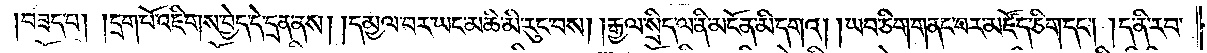།བཟད་པ། །དྲག་པོ་འཇིགས་བྱེད་དེ་དྲན་ནས། །དམྱལ་བར་ཡང་མཆི་མི་རུང་བས་།རྒྱལ་སྲིད་ལ་ནི་མངོན་མི་དགའ། །ཡབ་ཅིག་གནང་བར་མཛོད་ཅིག་དང༌། །ད་ནི་རབ་
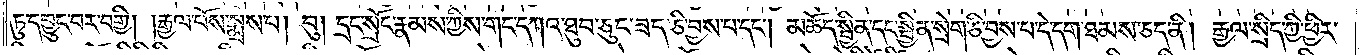ཏུ་དབྱུང་བར་བགྱི། །རྒྱལ་པོས་སྨྲས་པ། །བུ། དྲང་སྲོང་རྣམས་ཀྱིས་གང་དཀའ་ཐུབ་ཅུང་ཟད་ཅི་བྱས་པ་དང༌། མཆོད་སྦྱིན་དང་སྦྱིན་སྲེག་ཅི་བྱས་པ་དེ་དག་ཐམས་ཅད་ནི། རྒྱལ་སྲིད་ཀྱི་ཕྱིར་
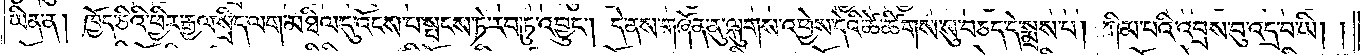ཡིན་ན། ཁྱོད་ཅིའི་ཕྱིར་རྒྱལ་སྲིད་ལག་མཐིལ་དུ་འོངས་པ་སྤངས་ཏེ་རབ་ཏུ་འབྱུང༌། དེ་ནས་གཞོན་ནུ་ལྐུགས་འཕྱེས་དེའི་ཚེ་ཚིགས་སུ་བཅད་དེ་སྨྲས་པ། ཀིམ་པའི་འབྲས་བུ་འདྲ་བ་ཡི། །
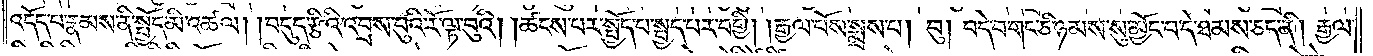འདོད་པ་རྣམས་ནི་སྤྱོད་མི་འཚལ། །བདུད་རྩིའི་འབྲས་བུའི་རོ་ལྟ་བུའི། །ཚངས་པར་སྤྱོད་པ་སྤྱད་པར་བགྱི། །རྒྱལ་པོས་སྨྲས་པ། བུ། བདེ་བ་གང་ཅི་ཉམས་སུ་མྱོང་བ་དེ་ཐམས་ཅད་ནི། རྒྱལ་
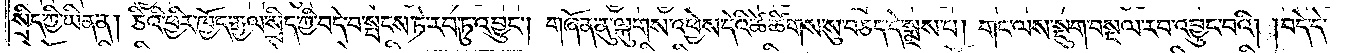སྲིད་ཀྱི་ཡིན་ན། ཅིའི་ཕྱིར་ཁྱོད་རྒྱལ་སྲིད་ཀྱི་བདེ་བ་སྤངས་ཏེ་རབ་ཏུ་འབྱུང༌། གཞོན་ནུ་ལྐུགས་འཕྱེས་དེའི་ཚེ་ཚིགས་སུ་བཅད་དེ་སྨྲས་པ། གང་ལས་སྡུག་བསྔལ་རབ་འབྱུང་བའི། །བདེ་དེ་
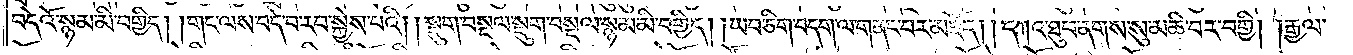བདེའི་སྙམ་མི་བགྱི། །གང་ལས་བདེ་བར་རབ་སྐྱེས་པའི། །སྡུག་བསྔལ་སྡུག་བསྔལ་སྙམ་མི་བགྱིད། །ཡབ་ཅིག་བདག་ལ་གནང་བར་མཛོད། །དཀའ་ཐུབ་ནགས་སུ་མཆི་བར་བགྱི། །རྒྱལ་
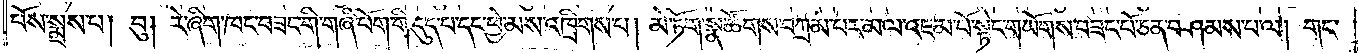པོས་སྨྲས་པ། བུ། རེ་ཞིག་ཁང་བཟང་གི་གཞི་པོག་གི་དུད་པ་དང་ཕྱེ་མས་འཁྲིགས་པ། མེ་ཏོག་སྣ་ཚོགས་བཀྲམ་པར་མལ་འཇམ་པོ་སྟེང་གཡོགས་བཟང་པོ་ཅན་བཤམས་པ་ལ། གང་
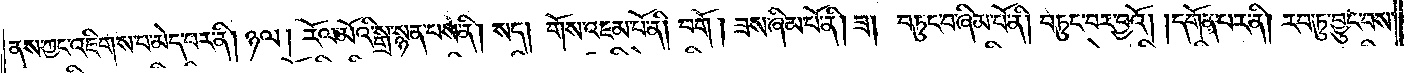ནས་ཀྱང་འཇིགས་པ་མེད་པར་ནི། ཉལ། རོལ་མོའི་སྒྲ་སྙན་པས་ནི། སད། གོས་འཇམ་པོ་ནི། བགོ། ཟས་ཞིམ་པོ་ནི། ཟ། བཏུང་བ་ཞིམ་པོ་ནི། བཏུང་བར་བྱའོ། །དགོན་པར་ནི། རབ་ཏུ་བྱུང་བས་
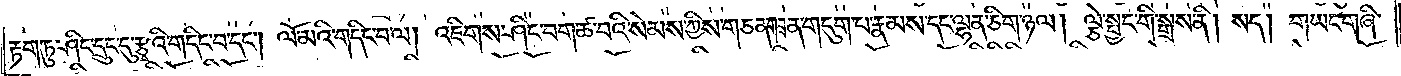རྟག་ཏུ་ཤིང་དྲུང་དུ་རྩྭའི་གདིང་བ་དང༌། ལོ་མའི་གདིང་བ་ལ། འཇིགས་ཤིང་བག་ཚ་བའི་སེམས་ཀྱིས་གཅན་གཟན་གདུག་པ་རྣམས་དང་ལྷན་ཅིག་ཉལ། ལྕེ་སྤྱང་གི་སྒྲས་ནི། སད། གཡང་གཞི་
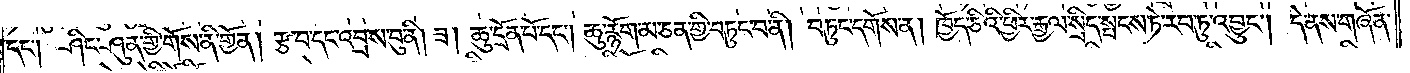དང༌། ཤིང་ཤུན་གྱི་གོས་ནི་གྱོན། རྩ་བ་དང་འབྲས་བུ་ནི། ཟ། ཆུ་དྲོན་པོ་དང༌། ཆུ་རྙོག་མ་ཅན་གྱི་བཏུང་བ་ནི། བཏུང་དགོས་ན། ཁྱོད་ཅིའི་ཕྱིར་རྒྱལ་སྲིད་སྤངས་ཏེ་རབ་ཏུ་འབྱུང༌། དེ་ནས་གཞོན་
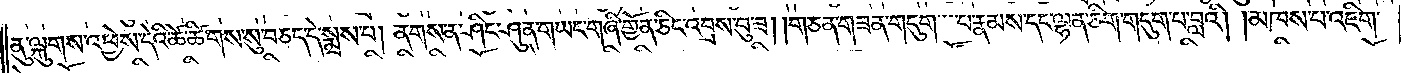ནུ་ལྐུགས་འཕྱེས་དེའི་ཚེ་ཚིགས་སུ་བཅད་དེ་སྨྲས་པ། ནགས་ན་ཤིང་ཤུན་གཡང་གཞི་གྱོན་ཅིང་འབྲས་བུ་ཟ། །གཅན་གཟན་གདུག་པ་རྣམས་དང་ལྷན་ཅིག་གདུག་པ་བླའི། །མཁས་པ་འཇིག་
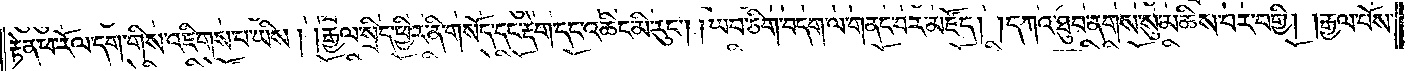རྟེན་ཕ་རོལ་དག་གིས་འཇིགས་པ་ཡིས། །རྒྱལ་སྲིད་ཕྱིར་ནི་གསོད་དང་རྡེག་དང་འཆིང་མི་རུང༌། །ཡབ་ཅིག་བདག་ལ་གནང་བར་མཛོད། །དཀའ་ཐུབ་ནགས་སུ་མཆིས་པར་བགྱི། །རྒྱལ་པོས་
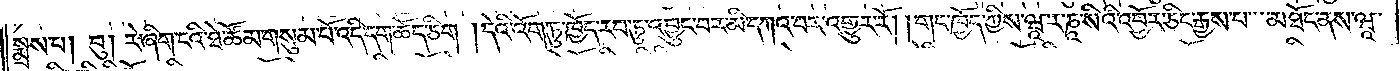སྨྲས་པ། །བུ་རེ་ཞིག་ངའི་ཐེ་ཚོམ་གསུམ་པོ་འདི་དག་ཆོད་ཅིག །དེའི་འོག་ཏུ་ཁྱོད་རབ་ཏུ་འབྱུང་བར་མི་དཀའ་བར་འགྱུར་རོ། །གང་ཁྱོད་ཀྱིས་ཝཱ་ར་ཎཱ་སིའི་འབྱོར་ཅིང་རྒྱས་པ་མཐོང་ནས་ཝཱ་
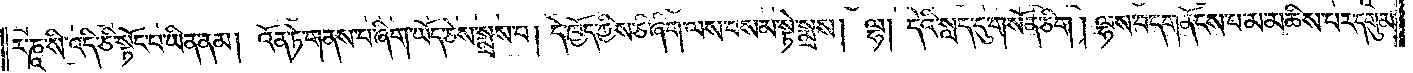ར་ཎཱ་སི་འདི་ཅི་སྟོང་པ་ཡིན་ནམ། འོན་ཏེ་གནས་པ་ཞིག་ཡོད་ཅེས་སྨྲས་པ། དེ་ཁྱོད་ཀྱིས་ཅི་ཞིག་ལས་བསམ་སྟེ་སྨྲས། ལྷ། དེའི་སླད་དུ་གསོན་ཅིག །ལྷས་བདག་ནོངས་པ་མ་མཆིས་པར་དགུམ་
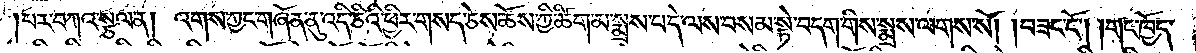།པར་བཀའ་སྩལ་ན། འགས་ཀྱང་གཞོན་ནུ་འདི་ཅིའི་ཕྱིར་གསད་ཅེས་ཆོས་ཀྱི་ཚིག་མ་སྨྲས་བདེ་ལས་བསམ་སྟེ་བདག་གིས་སྨྲས་ལགས་སོ། །བཟང་ངོ༌། །གང་ཁྱོད་
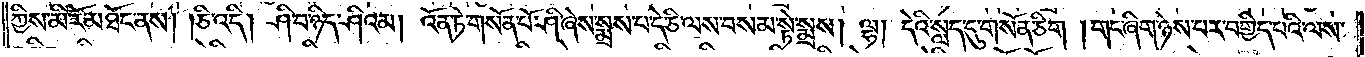ཀྱིས་མི་རོ་མཐོང་ནས། །ཅི་འདི། ཤི་བ་ཉིད་ཤིའམ། འོན་ཏེ་གསོན་པོ་ཤི་ཞེས་སྨྲས་པ་དེ་ཅི་ལས་བསམ་སྟེ་སྨྲས། ལྷ། དེའི་སླད་དུ་གསོན་ཅིག །གང་ཞིག་ཉེས་པར་བགྱིད་པའི་ལས་
